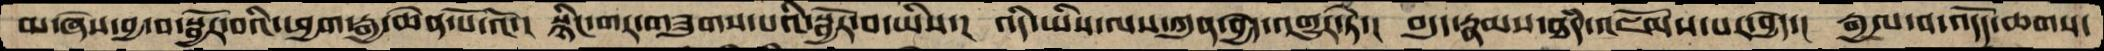མ་ཞེས་བྱ་བ་སྦྱོར་བའི་ཕྱག་རྒྱ་ཆེན་པོ་འོ་།  སྙིང་གར་གཟུགས་པའི་སྦྱོར་བ་ཡིས་།  འདི་ཡིས་ལས་ཀུན་བྱེད་འགྱུར་ཏེ་།  བདུད་རྣམས་ཐཾད་འཇོམས་པར་བྱེད་།  རྒྱལ་བ་འདོད་ཆགས་
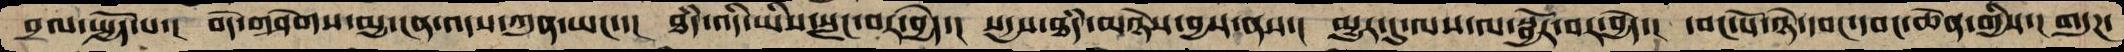བྲལ་སྤྱོད་པ་།  བདེ་གཤེགས་མྱ་ངན་འདས་ཀུན་ཡང་་།  ཐཾད་འདི་ཡིས་སླང་བར་བྱེད་།  སདྱས་ཐཾད་མཉེས་བྱས་ནས་།  མྱུར་དུ་ལས་ལ་སྦྱོར་བར་བྱེད་།  དབང་པོ་ཉེ་དབང་དབང་ཆེན་གྱིས་།  གདུཌ་
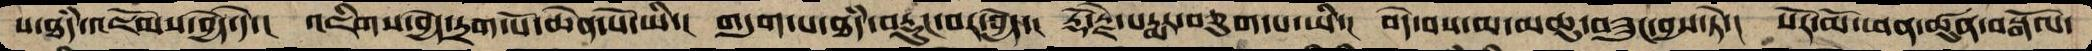པ་ཐཾད་འཇོམས་བྱེད་དེ་།  འཇིགས་བྱེད་དྲག་པོ་ཆེན་པོ་ཡི་།  གདུག་པ་ཐཾད་བརྡུང་བར་བྱེད་།  རྡོ་རྗེ་པདྨར་བཅུག་པ་ཡི་།  བདེ་བས་མ་མཆུ་བཟུང་བྱས་ཏེ་།  སོར་མོ་ཕན་ཚུན་བསྒོལ་
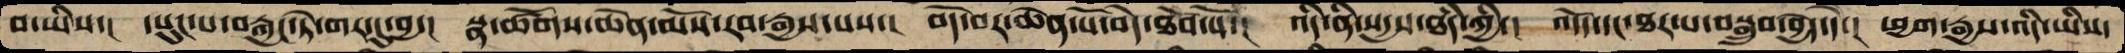བ་ཡིས་།  དཔུང་པ་བརྐྱང་ཏེ་གར་དུ་བྱ་།  སྣ་ཚོགས་ཆེན་མོས་རབ་རྒྱས་པས་།  བདེ་བར་ཆེན་པོ་བདེ་ཐོབ་པོ་།  འདི་ནི་སདྱས་ཐཾད་ཀྱི་།  འདོད་དང་ཐར་པ་བསྒྲུབ་བྱེད་དེ་།  ཕྱག་རྒྱས་འདི་ཡིས་
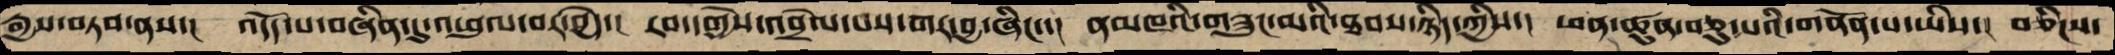རྒྱས་བཏབ་ནས་།   འདོད་པ་བཞིན་དུ་འཕུལ་བར་བྱེད་།  རབ་དགྱེས་འབྲེལ་བས་གར་བྱ་ཞིང་་།  ནམཁའི་གཟུང་མའི་ཐབས་ཉིད་ཀྱིས་།  ཕན་ཚུན་བཅུ་པའི་གནོན་པ་ཡིས་།  བཅིངས་
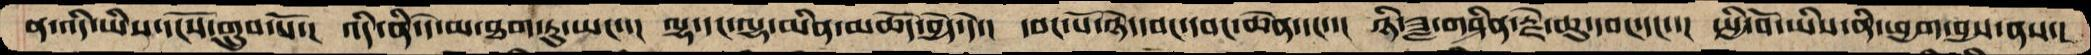ན་འདི་ཡིས་དངོས་གྲུབ་པོ་།  འདི་ནི་དེ་མ་ཐག་ཏུ་ཡང་་།  ལྷ་དང་ལྷ་མིན་མཆོད་བྱེད་དེ་།  དབང་པོ་ཉེ་དབང་དབང་ཆེན་དང་་།  ཉི་ཟླ་གཤིན་རྗེ་ཆུ་དབང་དང་་།  སྤྱི་བོ་ཡིས་ནི་ཕྱག་བྱས་ནས་།
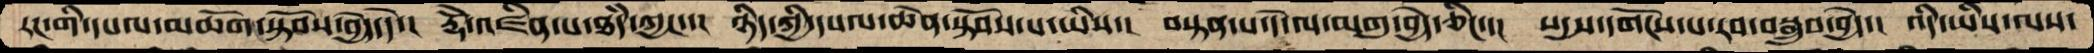རང་གི་དཔལ་མཆོག་སྟོབས་བྱེད་དེ་།  རྡོེ་འཛིན་པ་ཐཾད་ཀྱང་་།  ཉིད་ཀྱི་དཔལ་ཆེན་སྟོབས་པ་ཡིས་།  བསྟན་པ་དེ་ལ་མགུ་བྱེད་ཅིང་་།  སདྱས་དགོངས་པ་རབ་བསྒྲུབ་བྱེད་།  འདི་ཡིས་ལས་
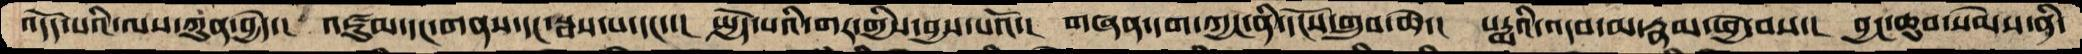འདོད་པའི་ལས་ཀུན་བྱེད་།  འཛུམ་དང་གནས་དང་སྦས་པ་དང་་།  སྤྱོད་པའི་གར་གྱིས་བྱས་པའོ་།  གཞན་དག་ཀྱང་ནི་དངོས་གྲུབ་ཆེ་།  པདྨའི་འདབ་མ་རྣམ་ཕྱེ་བས་།  བྱང་ཆུབ་སེམས་ནི་
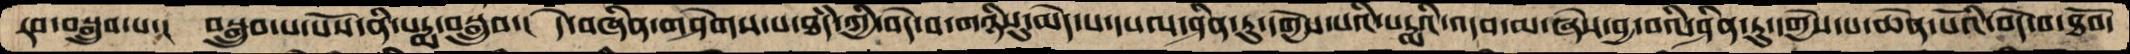རབ་བསྒྲུབ་པ་།  བསྒྲུབ་པ་པོས་ནི་པདྨ་བསྒྲུབ་།  དེ་བཞིན་གཤེགས་པ་ཐཾད་ཀྱི་བདེ་བ་གཉིསུ་མེད་པ་དཔལ་ཤིན་ཏུ་དགྱེས་པའི་པདྨའི་འདབ་མ་ཞེས་བྱ་བའི་ཤིན་ཏུ་དགྱེས་པ་ཆེན་པོའི་བདེ་བ་ཐོབ་
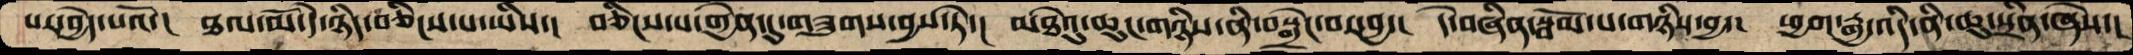པར་བྱེད་པའོ་།  ཐལ་མོ་དེ་ཉིད་བཅིངས་པ་ཡིས་།  བཅིངས་པ་གྱེན་དུ་གཟུགས་བྱས་ཏེ་།  མཐེའུ་ཆུང་གཉིས་ནི་བསྒྲེང་བར་བྱ་།  དེ་བཞིན་སྦོམ་པ་གཉིས་བྱ་།  ཕྱག་རྒྱ་འདི་ནི་ཆུ་སྲིན་ཞེས་།
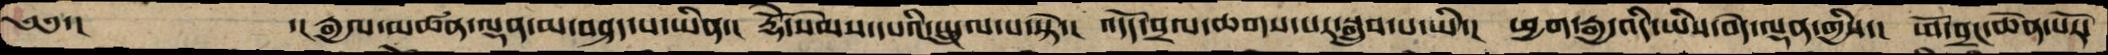༄༅་།       ་།རྒྱལ་མཚན་ལྡན་མ་བཤད་པ་ཡིན་།  རྡོེ་སེམས་དཔའི་སྤྲུལ་པ་སྟེ་།  འདོད་བྲལ་ཆགས་པར་སྒྲུབ་པ་ཡི་།  ཕྱག་རྒྱ་འདི་ཡིས་བདེ་ལྡན་གྱིས་།  ཕོ་བྲང་ཆེན་པོར་
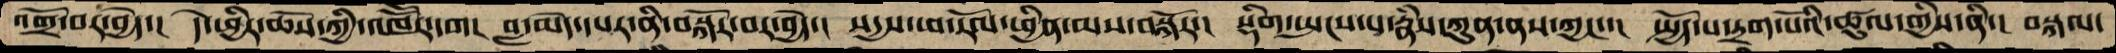འགྲོ་བར་བྱེད་།  དེ་ཕྱིར་ཆོས་ཀྱི་འཁཽར་དག་། བླ་མེད་དཔར་ནི་བསྐོར་བར་བྱེད་།  སདྱས་ཕ་རོལ་ཕྱིན་མས་བསྐོར་།  སྡིག་སྤངས་པ་རྣཾས་ཀུན་ནས་ཀྱང་་།  སྤྱོད་པ་དྲག་པོའི་ཚུལ་གྱིས་ནི་།  བསྐལ་
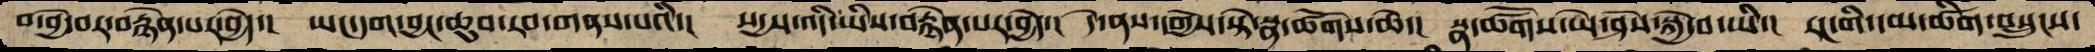བ་བྱེ་བར་བརྙེན་པར་བྱེད་།  ཡང་དག་བྱང་ཆུབ་རབ་གནས་པའི་།  སདྱས་འདི་ཡིས་བརྙེན་པར་བྱེད་།  དེ་ནས་དགྱེས་སྟེ་སྣ་ཚོགས་ཆེ་།  སྣ་ཚོགས་ཡེ་ཤེས་སྐྱེ་བ་ཡི་།  རང་གི་དམ་ཚིག་བསྲུངས་
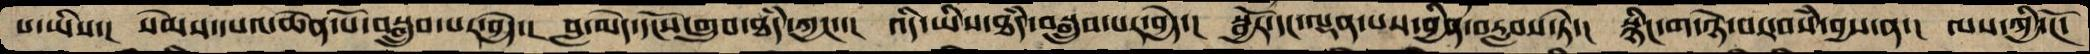པ་ཡིས་།  སེམས་དཔའ་ཆེན་པོ་བསྒྲུབ་པར་བྱེད་།  བླ་མེད་དངོས་གྲུབ་ཐཾད་ཀྱང་་།  འདི་ཡིས་ཐཾད་བསྒྲུབ་པར་བྱེད་།  སྦྱོར་དང་ལྡན་པས་བྱིན་བརླབས་ཏེ་།  སྙིང་ག་ཉེ་བར་བསཾ་བྱས་ན་།  ལས་ཀྱི་ངོ་
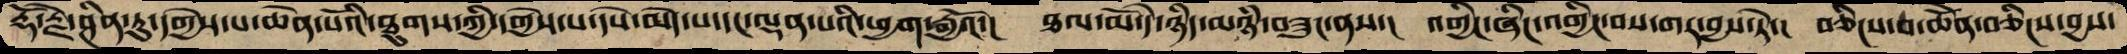རྡོ་རྗེ་ཤིན་ཏུ་དགྱེས་པ་ཆེན་པོའི་ཐུགས་ཀྱི་དགྱེས་པ་དཔེ་མེད་པ་དང་ལྡན་པའི་ཕྱག་རྒྱའོ་།  ཐལ་མོ་དེ་ཉིད་མཉཾ་བཟུང་ནས་།  འགྱིང་ཞིང་འགྱིང་བས་གར་བྱས་ཏེ་།  བཅིངས་བ་ཆེནོ་བཅིངས་བྱས་
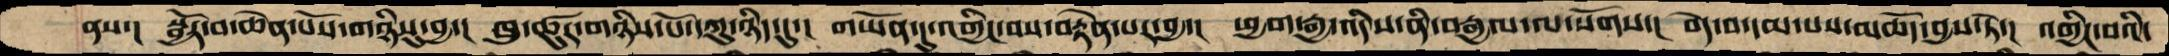ནས་།   སྦྱོར་བ་ཆེན་པོས་གཉིསུ་བྱ་།  ཁུ་ཚུར་གཉིས་པོ་དཀུ་ཉིད་དུ་།  གཡོན་དུ་འགྱིང་བས་བརྟེན་པར་བྱ་།  ཕྱག་རྒྱ་འདིས་ནི་བརྒྱལ་ལ་སོགས་།  བདེ་བ་དམ་པས་མཆོད་བྱས་ཏེ་།  འགྱིང་བའི་
